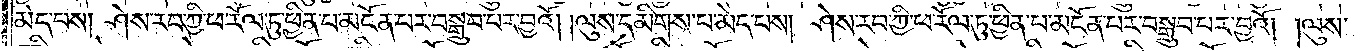མེད་པས། ཤེས་རབ་ཀྱི་ཕ་རོལ་ཏུ་ཕྱིན་པ་མངོན་པར་བསྒྲུབ་པར་བྱའོ། །ལུས་དམིགས་པ་མེད་པས། ཤེས་རབ་ཀྱི་ཕ་རོལ་ཏུ་ཕྱིན་པ་མངོན་པར་བསྒྲུབ་པར་བྱའོ། །ལུས་
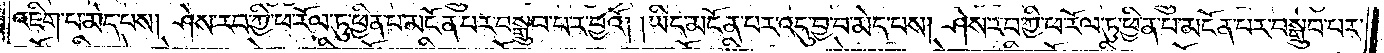འཇིག་པ་མེད་པས། ཤེས་རབ་ཀྱི་ཕ་རོལ་ཏུ་ཕྱིན་པ་མངོན་པར་བསྒྲུབ་པར་བྱའོ། །ཡིད་མངོན་པར་འདུ་བྱ་བ་མེད་པས། ཤེས་རབ་ཀྱི་ཕ་རོལ་ཏུ་ཕྱིན་པ་མངོན་པར་བསྒྲུབ་པར་
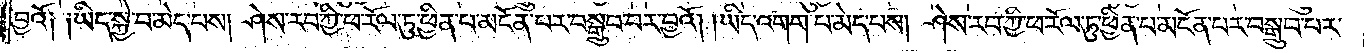བྱའོ༑ ༑ཡིད་སྐྱེ་བ་མེད་པས། ཤེས་རབ་ཀྱི་ཕ་རོལ་ཏུ་ཕྱིན་པ་མངོན་པར་བསྒྲུབ་པར་བྱའོ། །ཡིད་འགག་པ་མེད་པས། ཤེས་རབ་ཀྱི་ཕ་རོལ་ཏུ་ཕྱིན་པ་མངོན་པར་བསྒྲུབ་པར་
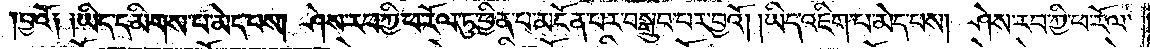བྱའོ༑ ༑ཡིད་དམིགས་པ་མེད་པས། ཤེས་རབ་ཀྱི་ཕ་རོལ་ཏུ་ཕྱིན་པ་མངོན་པར་བསྒྲུབ་པར་བྱའོ། །ཡོད་འཇིག་པ་མེད་པས། ཤེས་རབ་ཀྱི་ཕ་རོལ་
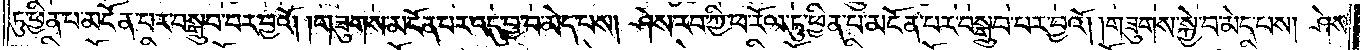ཏུ་ཕྱིན་པ་མངོན་པར་བསྒྲུབ་པར་བྱའོ། །གཟུགས་མངོན་པར་འདུ་བྱ་བ་མེད་པས། ཤེས་རབ་ཀྱི་ཕ་རོལ་ཏུ་ཕྱིན་པ་མངོན་པར་བསྒྲུབ་པར་བྱའོ། །གཟུགས་སྐྱེ་བ་མེད་པས། ཤེས་
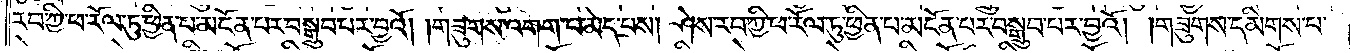རབ་ཀྱི་ཕ་རོལ་ཏུ་ཕྱིན་པ་མངོན་པར་བསྒྲུབ་པར་བྱའོ། །གཟུགས་འགག་པ་མེད་པས། ཤེས་རབ་ཀྱི་ཕ་རོལ་ཏུ་ཕྱིན་པ་མངོན་པར་བསྒྲུབ་པར་བྱའོ། །གཟུགས་དམིགས་པ་
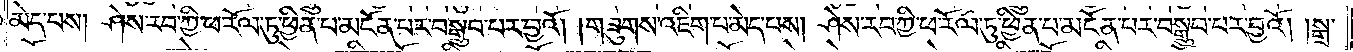མེད་པས། ཤེས་རབ་ཀྱི་ཕ་རོལ་ཏུ་ཕྱིན་པ་མངོན་པར་བསྒྲུབ་པར་བྱའོ། །གཟུགས་འཇིག་པ་མེད་པས། ཤེས་རབ་ཀྱི་ཕ་རོལ་ཏུ་ཕྱིན་པ་མངོན་པར་བསྒྲུབ་པར་བྱའོ། །སྒྲ་
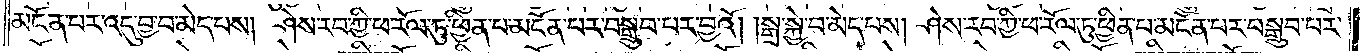མངོན་པར་འདུ་བྱ་བ་མེད་པས། ཤེས་རབ་ཀྱི་ཕ་རོལ་ཏུ་ཕྱིན་པ་མངོན་པར་བསྒྲུབ་པར་བྱའོ། །སྒྲ་སྐྱེ་བ་མེད་པས། ཤེས་རབ་ཀྱི་ཕ་རོལ་ཏུ་ཕྱིན་པ་མངོན་པར་བསྒྲུབ་པར་
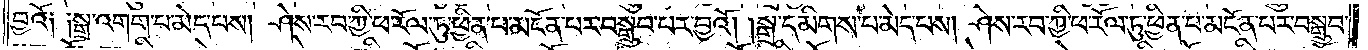བྱའོ༑ ༑སྒྲ་འགག་པ་མེད་པས། ཤེས་རབ་ཀྱི་ཕ་རོལ་ཏུ་ཕྱིན་པ་མངོན་པར་བསྒྲུབ་པར་བྱའོ། །སྒྲ་དམིགས་པ་མེད་པས། ཤེས་རབ་ཀྱི་ཕ་རོལ་ཏུ་ཕྱིན་པ་མངོན་པར་བསྒྲུབ་
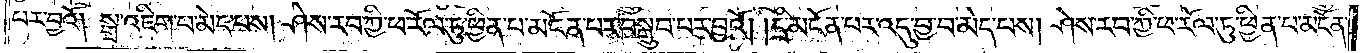པར་བྱའོ། །སྒྲ་འཇིག་པ་མེད་པས། ཤེས་རབ་ཀྱི་ཕ་རོལ་ཏུ་ཕྱིན་པ་མངོན་པར་བསྒྲུབ་པར་བྱའོ། །དྲི་མངོན་པར་འདུ་བྱ་བ་མེད་པས། ཤེས་རབ་ཀྱི་ཕ་རོལ་ཏུ་ཕྱིན་པ་མངོན་
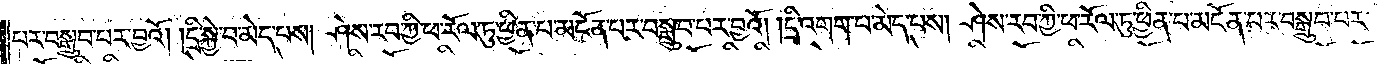པར་བསྒྲུབ་པར་བྱའོ། །དྲི་སྐྱེ་བ་མེད་པས། ཤེས་རབ་ཀྱི་ཕ་རོལ་ཏུ་ཕྱིན་པ་མངོན་པར་བསྒྲུབ་བར་བྱའོ། །དྲི་འགག་པ་མེད་པས། ཤེས་རབ་ཀྱི་ཕ་རོལ་ཏུ་ཕྱིན་པ་མངོན་པར་བསྒྲུབ་པར་
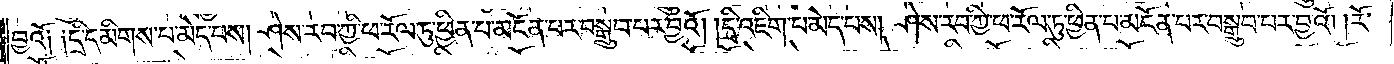བྱའོ༑ ༑དྲི་དམིགས་པ་མེད་པས། ཤེས་རབ་ཀྱི་ཕ་རོལ་ཏུ་ཕྱིན་པ་མངོན་པར་བསྒྲུབ་པར་བྱའོ། །དྲི་འཇིག་པ་མེད་པས། ཤེས་རབ་ཀྱི་ཕ་རོལ་ཏུ་ཕྱིན་པ་མངོན་པར་བསྒྲུབ་པར་བྱའོ། །རོ་
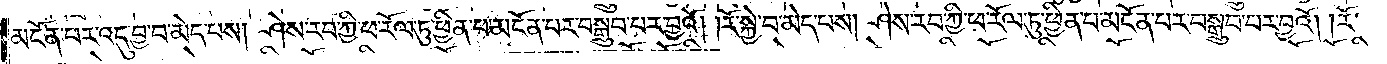མངོན་པར་འདུ་བྱ་བ་མེད་པས། ཤེས་རབ་ཀྱི་ཕ་རོལ་ཏུ་ཕྱིན་པ་མངོན་པར་བསྒྲུབ་པར་བྱའོ། །རོ་སྐྱེ་བ་མེད་པས། ཤེས་རབ་ཀྱི་ཕ་རོལ་ཏུ་ཕྱིན་པ་མངོན་པར་བསྒྲུབ་པར་བྱའོ། །རོ་
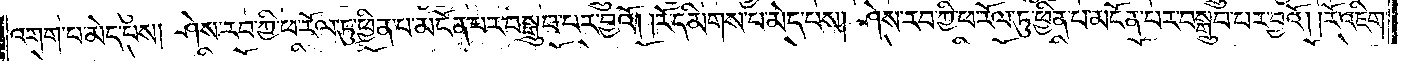འགག་པ་མེད་པས། ཤེས་རབ་ཀྱི་ཕ་རོལ་ཏུ་ཕྱིན་པ་མངོན་པར་བསྒྲུབ་པར་བྱའོ། །རོ་དམིགས་པ་མེད་པས། ཤེས་རབ་ཀྱི་ཕ་རོལ་ཏུ་ཕྱིན་པ་མངོན་པར་བསྒྲུབ་པར་བྱའོ། །རོ་འཇིག་
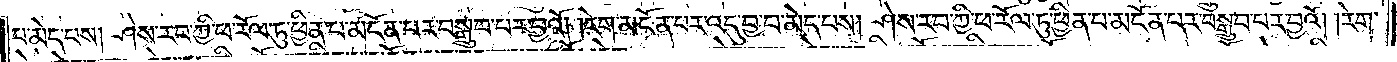པ་མེད་པས། ཤེས་རབ་ཀྱི་ཕ་རོལ་ཏུ་ཕྱིན་པ་མངོན་པར་བསྒྲུབ་པར་བྱའོ། །རེག་མངོན་པར་འདུ་བྱ་བ་མེད་པས། ཤེས་རབ་ཀྱི་ཕ་རོལ་ཏུ་ཕྱིན་པ་མངོན་པར་བསྒྲུབ་པར་བྱའོ། །རེག་
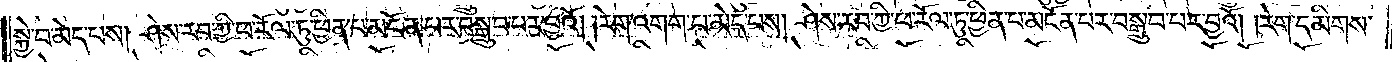སྐྱེ་བ་མེད་པས། ཤེས་རབ་ཀྱི་ཕ་རོལ་ཏུ་ཕྱིན་པ་མངོན་པར་བསྒྲུབ་པར་བྱའོ། །རེག་འགག་པ་མེད་པས། ཤེས་རབ་ཀྱི་ཕ་རོལ་ཏུ་ཕྱིན་པ་མངོན་པར་བསྒྲུབ་པར་བྱའོ། །རེག་དམིགས་
